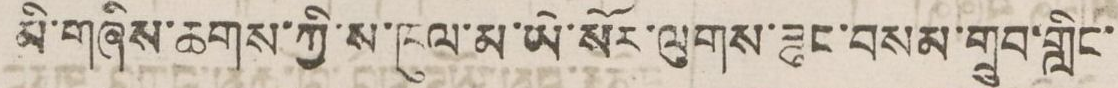མི་གཞིས་ཆགས་ཀྱི་ས་ཁུལ་མ་ཡེ་སོར་ལུགས་ཟུང་བསམ་གྲུབ་གླིང་
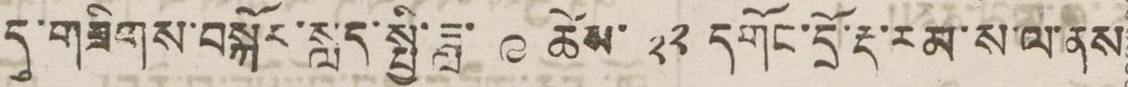དུ་གཟིགས་བསྐོར་སླད་སྤྱི་ཟླ་ ༩ ཚེས་ ༢༢ དགོང་དྲོ་རྡ་རམ་ས་ལ་ནས
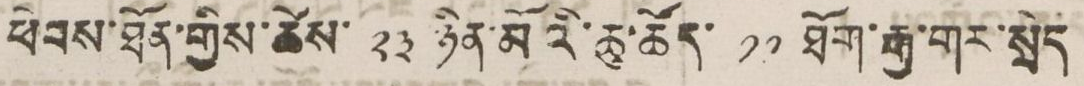ཕེབས་ཐོན་གྱིས་ཚེས་ ༢༣ ཉིན་མོའི་ཆུ་ཚོད་ ༡༡ ཐོག་རྒྱ་གར་སྲིད
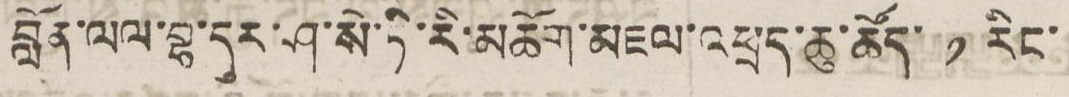བློན་ལལ་བྷ་དུར་ཤ་སེ་ཏི་རི་མཆོག་མཇལ་འཕྲད་ཆུ་ཚོད་ ༡ རིང་
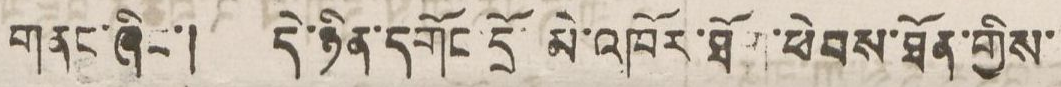གནང་ཞིང་། དེ་ཉིན་དགོང་དྲོ་མེ་འཁོར་ཐོག་ཕེབས་ཐོན་གྱིས་
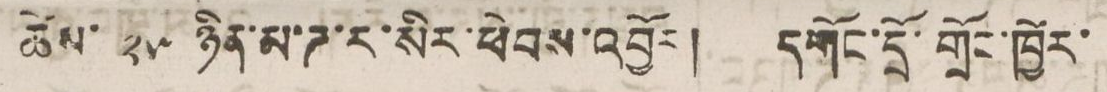ཚེས་ ༢༥ ཉིན་མ་ཌ་ར་སིར་ཕེབས་འབྱོར། དགོང་དྲོ་གྲོང་ཁྱེར་
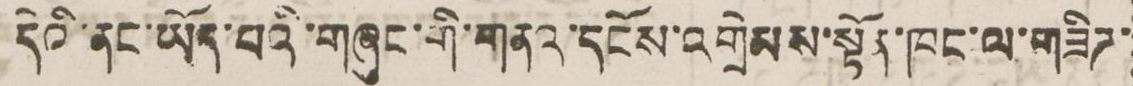དེའི་ནང་ཡོད་པའི་གཞུང་གི་གནའ་དངོས་འགྲེམས་སྟོན་ཁང་ལ་གཟིཊ་
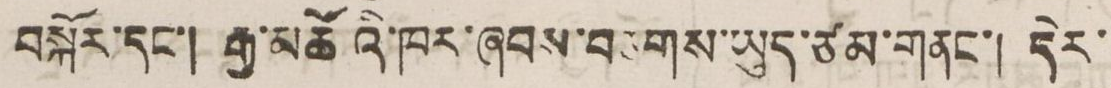བསྐོར་དང་། རྒྱ་མཚོའི་ཁར་ཞབས་བཅགས་ཡུད་ཙམ་གནང་། དེར་
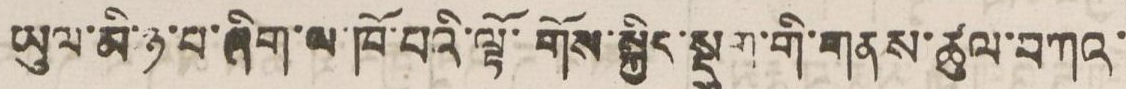ཡུལ་མི་ཉ་པ་ཞིག་ལ་ཁོ་བའི་ལྷོ་གོས་སྐྱིད་སྡུག་གི་གནས་ཚུལ་བཀའ་
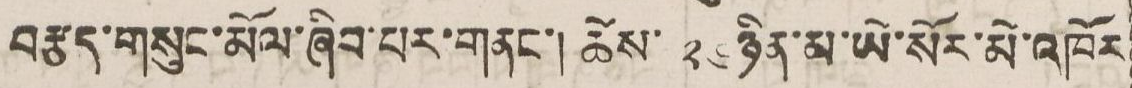བརྩད་གསུང་མོལ་ཞིབ་པར་གནང་། ཚེས་ ༢༦ ཉིན་མ་ཡེ་སོར་མེ་འཁོར
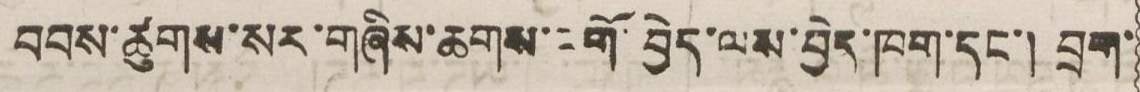བབས་ཚུགས་སར་གཞིས་ཆགས་འགོ་བྱེད་ལས་བྱེད་ཁག་དང་། བྲག་
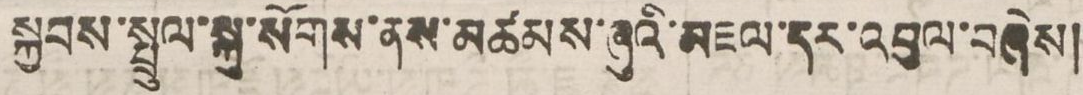སྐྱབས་སྤྲུན་སྐུ་སོགས་ནས་མཚམས་ཞུའི་མཇའ་དར་འབུལ་བཞེས།
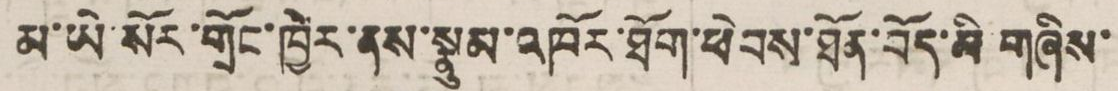མ་ཡེ་སོར་གྲོང་ཁྱེར་ནས་སྣུམ་འཁོར་ཐོག་ཕེབས་ཐོན་བོད་མི་གཞིས་
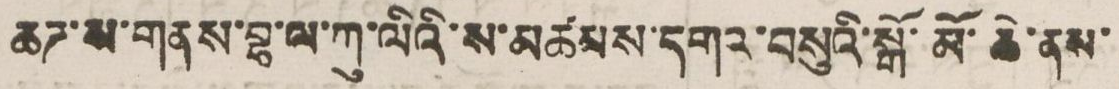ཆཊ་ས་གནས་བྷ་ལ་ཀུ་ལའི་ས་མཚམས་དགའ་བསུའི་སྒོ་མོ་ཆེ་ནས་
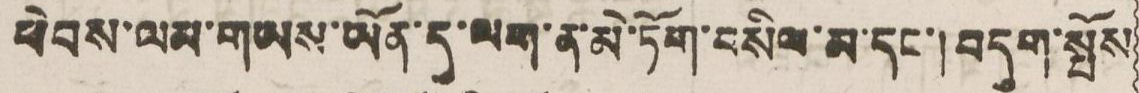ཕེབས་ལམ་གཡས་ཡོན་དུ་ལག་ན་མེ་ཏོག་བསིལ་མ་དང་། བདུག་སྤོས
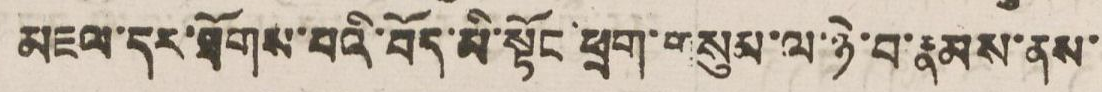མཇལ་དར་ཐོག་པའི་བོད་མི་སྟོང་ཕྲག་གསུམ་ལ་ཉེ་བ་རྣམས་ནས་
